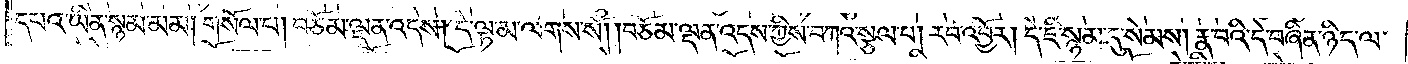དཔའ་ཡིན་སྙམ་མམ། གསོལ་པ། བཅོམ་ལྡན་འདས། དེ་ལྟ་མ་ལགས་སོ། །བཅོམ་ལྡན་འདས་ཀྱིས་བཀའ་སྩལ་པ། རབ་འབྱོར། དེ་ཇི་སྙམ་དུ་སེམས། རྣ་བའི་དེ་བཞིན་ཉིད་ལ་
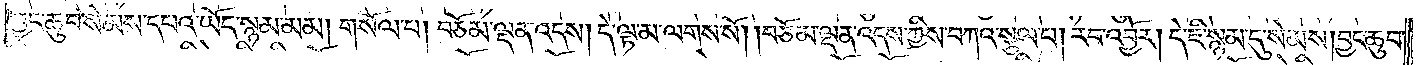བྱང་ཆུབ་སེམས་དཔའ་ཡོད་སྙམ་མམ། གསོལ་པ། བཅོམ་ལྡན་འདས། དེ་ལྟ་མ་ལགས་སོ། །བཅོམ་ལྡན་འདས་ཀྱིས་བཀའ་སྩལ་པ། རབ་འབྱོར། དེ་ཇི་སྙམ་དུ་སེམས། བྱང་ཆུབ་
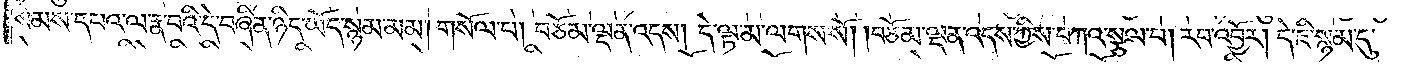སེམས་དཔའ་ལ་རྣ་བའི་དེ་བཞིན་ཉིད་ཡོད་སྙམ་མམ། གསོལ་པ། བཅོམ་ལྡན་འདས། དེ་ལྟ་མ་ལགས་སོ། །བཅོམ་ལྡན་འདས་ཀྱིས་བཀའ་སྩལ་པ། རབ་འབྱོར། དེ་ཇི་སྙམ་དུ་
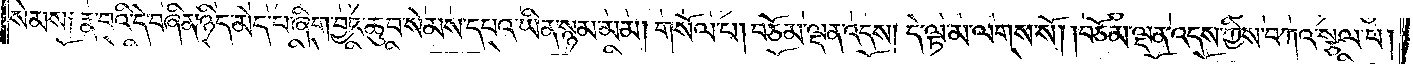སེམས༑ རྣ་བའི་དེ་བཞིན་ཉིད་མེད་པ་ཞིག་བྱང་ཆུབ་སེམས་དཔའ་ཡིན་སྙམ་མམ། གསོལ་པ། བཅོམ་ལྡན་འདས། དེ་ལྟ་མ་ལགས་སོ། །བཅོམ་ལྡན་འདས་ཀྱིས་བཀའ་སྩལ་པ།
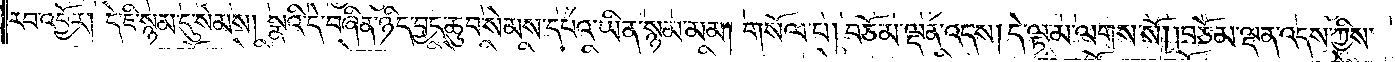རབ་འབྱོར། དེ་ཇི་སྙམ་དུ་སེམས། སྣའི་དེ་བཞིན་ཉིད་བྱང་ཆུབ་སེམས་དཔའ་ཡིན་སྙམ་མམ། གསོལ་པ། བཅོམ་ལྡན་འདས། དེ་ལྟ་མ་ལགས་སོ། །བཅོམ་ལྡན་འདས་ཀྱིས་
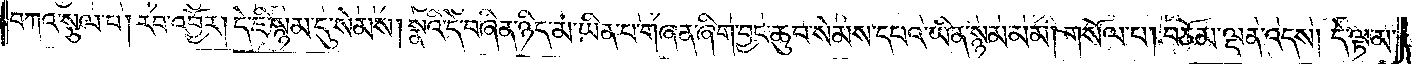བཀའ་སྩལ་པ། རབ་འབྱོར། དེ་ཇི་སྙམ་དུ་སེམས། སྣའི་དེ་བཞིན་ཉིད་མ་ཡིན་པ་གཞན་ཞིག་བྱང་ཆུབ་སེམས་དཔའ་ཡིན་སྙམ་མམ། གསོལ་པ། བཅོམ་ལྡན་འདས། དེ་ལྟ་མ་
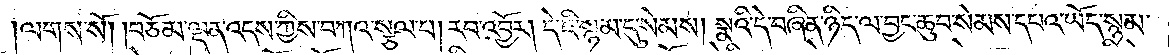ལགས་སོ། །བཅོམ་ལྡན་འདས་ཀྱིས་བཀའ་སྩལ་པ། རབ་འབྱོར། དེ་ཇི་སྙམ་དུ་སེམས། སྣའི་དེ་བཞིན་ཉིད་ལ་བྱང་ཆུབ་སེམས་དཔའ་ཡོད་སྙམ་
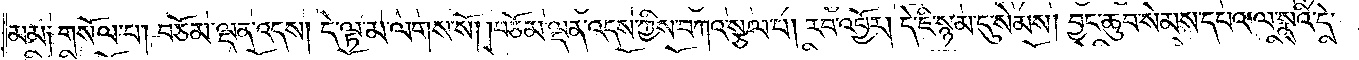མམ༑ གསོལ་པ། བཅོམ་ལྡན་འདས། དེ་ལྟ་མ་ལགས་སོ། །བཅོམ་ལྡན་འདས་ཀྱིས་བཀའ་སྩལ་པ། རབ་འབྱོར། དེ་ཇི་སྙམ་དུ་སེམས། བྱང་ཆུབ་སེམས་དཔའ་ལ་སྣའི་དེ་
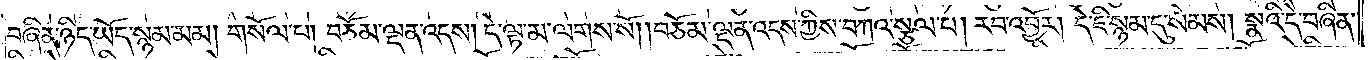བཞིན་ཉིད་ཡོད་སྙམ་མམ། གསོལ་པ། བཅོམ་ལྡན་འདས། དེ་ལྟ་མ་ལགས་སོ༑ ༑བཅོམ་ལྡན་འདས་ཀྱིས་བཀའ་སྩལ་པ། རབ་འབྱོར། དེ་ཇི་སྙམ་དུ་སེམས། སྣའི་དེ་བཞིན་
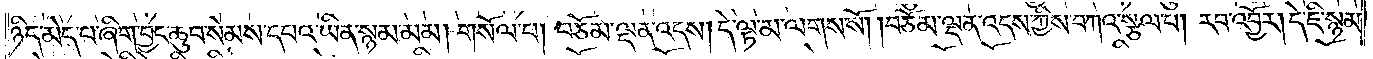ཉིད་མེད་པ་ཞིག་བྱང་ཆུབ་སེམས་དཔའ་ཡིན་སྙམ་མམ། གསོལ་པ། བཅོམ་ལྡན་འདས། དེ་ལྟ་མ་ལགས་སོ། །བཅོམ་ལྡན་འདས་ཀྱིས་བཀའ་སྩལ་པ། རབ་འབྱོར། དེ་ཇི་སྙམ་
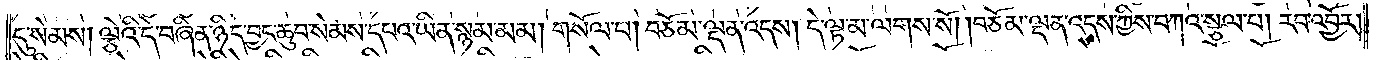དུ་སེམས། ལྕེའི་དེ་བཞིན་ཉིད་བྱང་ཆུབ་སེམས་དཔའ་ཡིན་སྙམ་མམ། གསོལ་པ། བཅོམ་ལྡན་འདས། དེ་ལྟ་མ་ལགས་སོ། །བཅོམ་ལྡན་འདས་ཀྱིས་བཀའ་སྩལ་པ། རབ་འབྱོར།
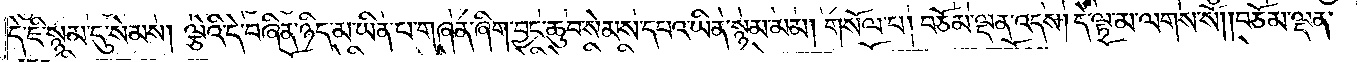དེ་ཇི་སྙམ་དུ་སེམས། ལྕེའི་དེ་བཞིན་ཉིད་མ་ཡིན་པ་གཞན་ཞིག་བྱང་ཆུབ་སེམས་དཔའ་ཡིན་སྙམ་མམ། གསོལ་པ། བཅོམ་ལྡན་འདས། དེ་ལྟ་མ་ལགས་སོ། །བཅོམ་ལྡན་
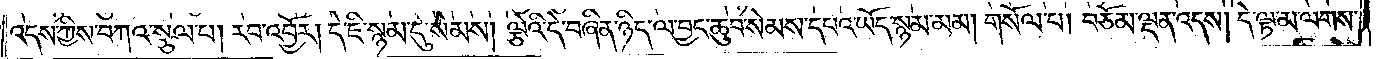འདས་ཀྱིས་བཀའ་སྩལ་པ། རབ་འབྱོར། དེ་ཇི་སྙམ་དུ་སེམས། ལྕེའི་དེ་བཞིན་ཉིད་ལ་བྱང་ཆུབ་སེམས་དཔའ་ཡོད་སྙམ་མམ། གསོལ་པ། བཅོམ་ལྡན་འདས། དེ་ལྟ་མ་ལགས་
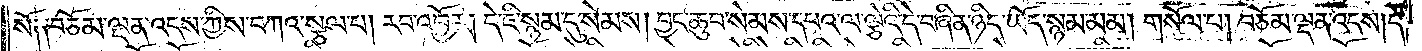སོ༑ ༑བཅོམ་ལྡན་འདས་ཀྱིས་བཀའ་སྩལ་པ། རབ་འབྱོར། དེ་ཇི་སྙམ་དུ་སེམས། བྱང་ཆུབ་སེམས་དཔའ་ལ་ལྕེའི་དེ་བཞིན་ཉིད་ཡོད་སྙམ་མམ། གསོལ་པ། བཅོམ་ལྡན་འདས། དེ་
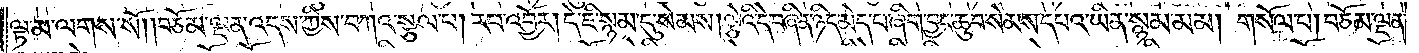ལྟ་མ་ལགས་སོ། །བཅོམ་ལྡན་འདས་ཀྱིས་བཀའ་སྩལ་པ། རབ་འབྱོར། དེ་ཇི་སྙམ་དུ་སེམས། ལྕེའི་དེ་བཞིན་ཉིད་མེད་པ་ཞིག་བྱང་ཆུབ་སེམས་དཔའ་ཡིན་སྙམ་མམ། གསོལ་པ། བཅོམ་ལྡན་
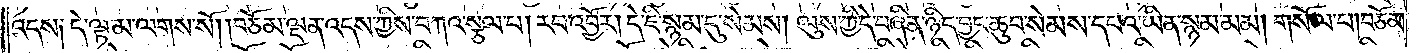འདས༑ དེ་ལྟ་མ་ལགས་སོ། །བཅོམ་ལྡན་འདས་ཀྱིས་བཀའ་སྩལ་པ། རབ་འབྱོར། དེ་ཇི་སྙམ་དུ་སེམས། ལུས་ཀྱི་དེ་བཞིན་ཉིད་བྱང་ཆུབ་སེམས་དཔའ་ཡིན་སྙམ་མམ། གསོལ་པ། བཅོམ་
